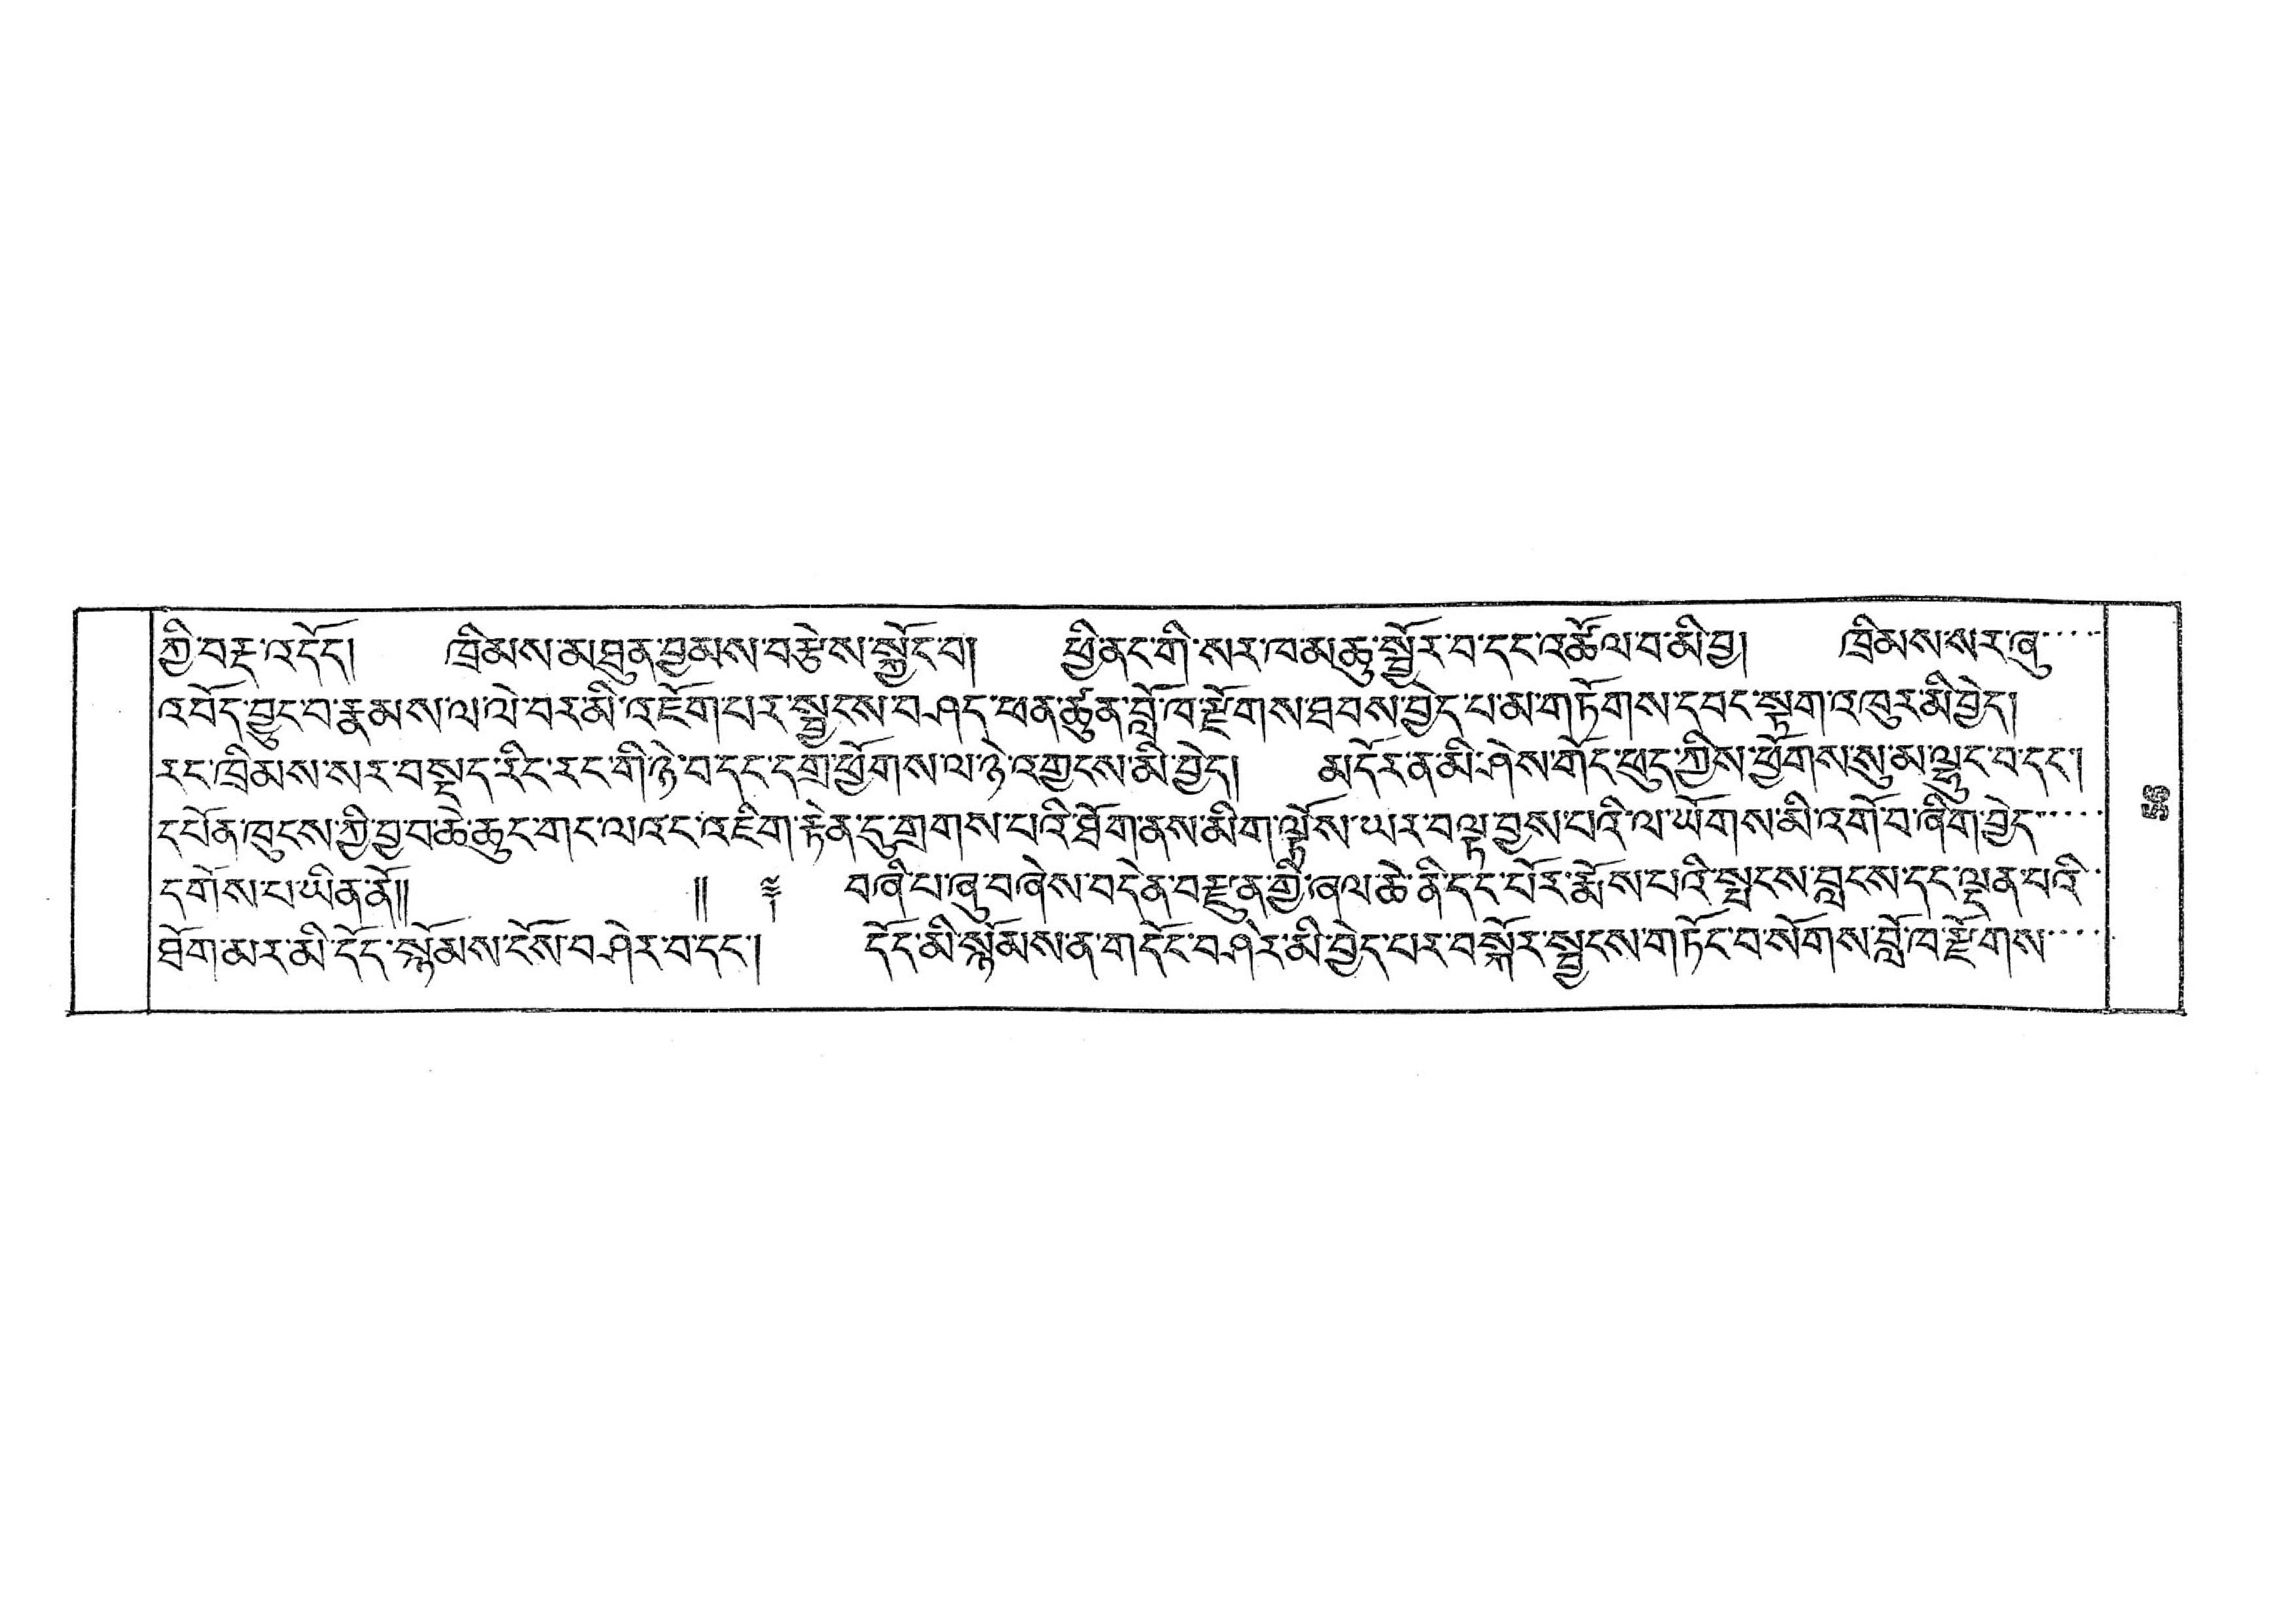སྱི་བརྡ་འདོད། ཁྲིམས་མཐུན་བྱམས་བརྩེས་སྐྱོང་བ། ཕྱི་ནང་གི་སར་ཁ་མཆུ་སྦྱོར་བ་དང་འཚོལ་བ་མི་བྱ། ཁྲིམས་སར་ཞུ་་་་་
འབོད་བྱུང་བ་རྣམས་ལ་ལེ་བར་མི་འཇོག་པར་སྦྱངས་བཤད་ཕན་ཚུན་བློ་ཁ་རྫོགས་ཐབས་བྱེད་པ་མ་གཏོགས་དབང་སྟག་འཁུར་མི་བྱེད།
རང་ཁྲིམས་སར་བསྡད་རིང་རང་གི་ཉེ་བ་དང་དགྲ་ཕྱོགས་ལ་ཉེ་འགྱངས་མི་བྱེད། མདོར་ན་མི་ཤེས་གོང་ཕུད་ཀྱིས་ཕྱོགས་སུ་མ་ལྷུང་བ་དང་།
དཔོན་ཁུངས་ཀྱི་བྱ་བ་ཆེ་ཆུང་གང་ལའང་འཇིག་རྟེན་དུ་གྲགས་པའི་ཐོག་ནས་མིག་ལྟོས་ཡར་བལྟ་བྱས་པའི་ལ་ཡོགས་མི་འགོ་བ་ཞིག་བྱེད་་་་
དགོས་པ་ཡིན་ནོ།།  །། ༈ བཞི་པ་ཞུ་བཞེས་བདེན་བརྫུན་གྱི་ཞལ་ཆེ་ནི་དང་པོར་རྨོས་པའི་སྤངས་བླངས་དང་ལྡན་པའི་་
ཐོག་མར་མི་དོད་སྙོམས་ངོས་བཤེར་བ་དང་། དོད་མི་སྙོམས་ན་གདོང་བཤེར་མི་བྱེད་པར་བསྐོར་སྦྱངས་གཏོང་བ་སོགས་བློ་བ་རྫོགས་་་་
